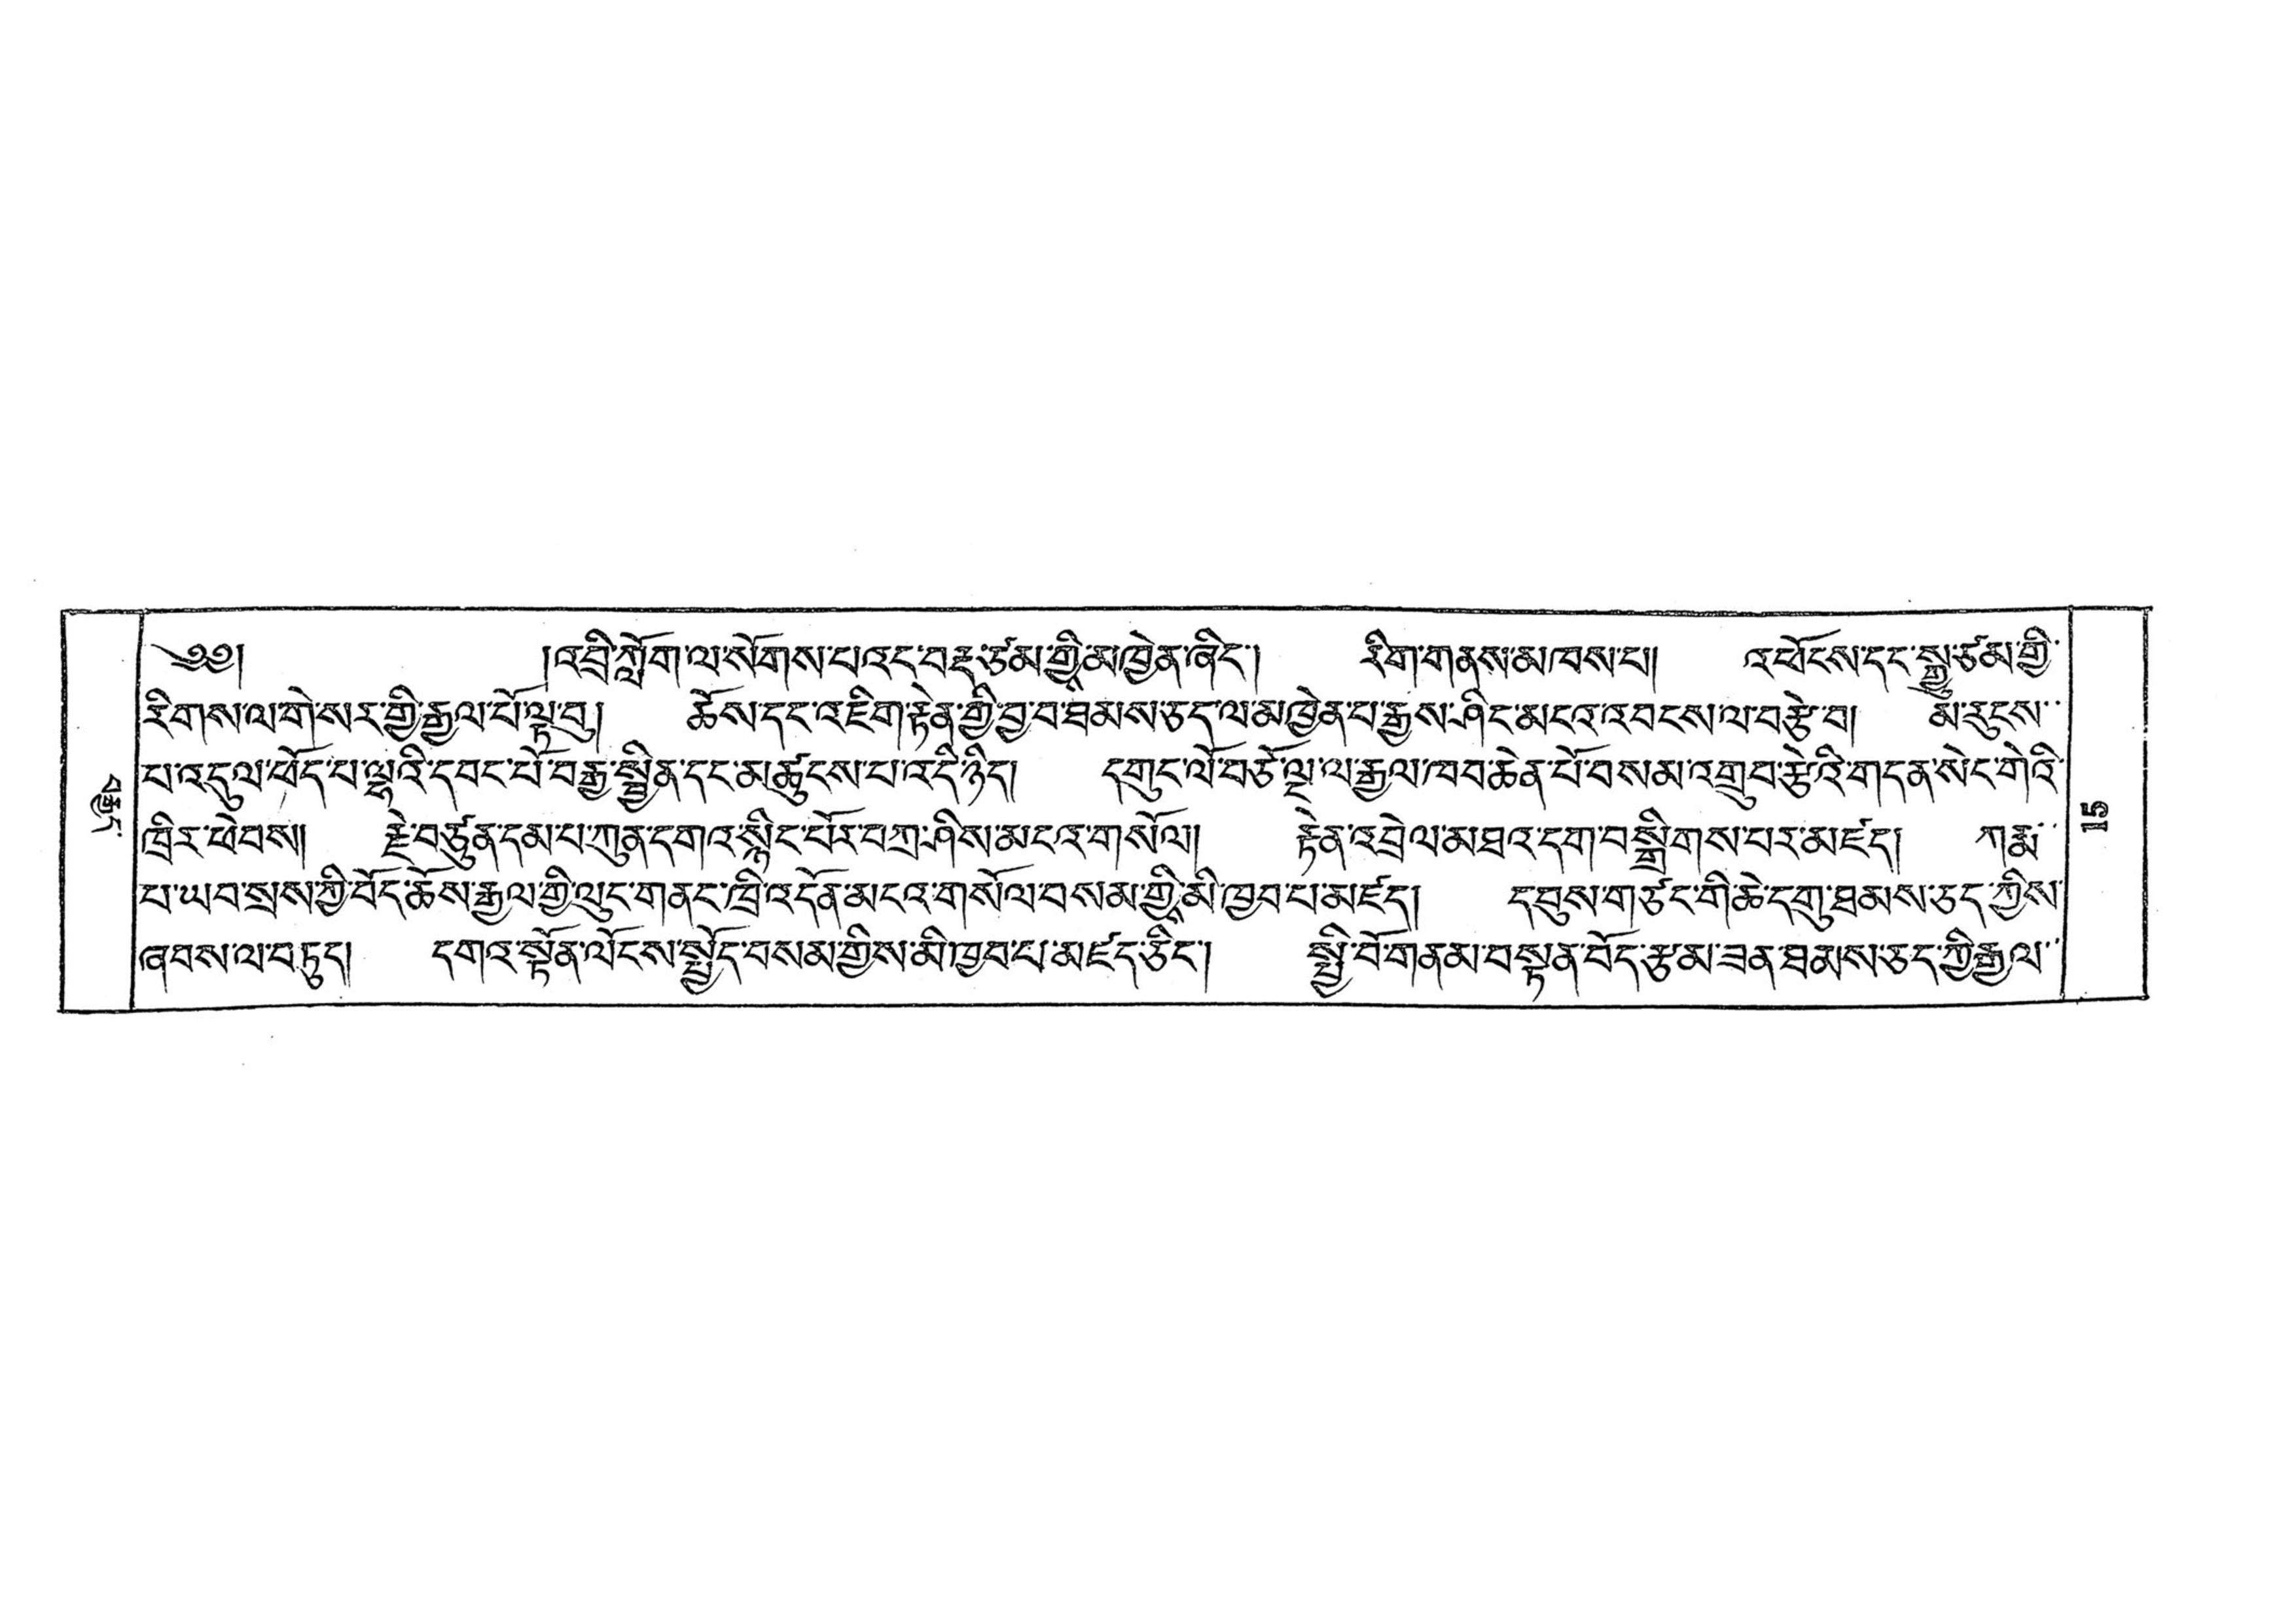བརྒྱད་
༄༅།  །འབྲི་ཀློག་ལ་སོགས་པའང་བརྡ་ཙམ་གྱིས་མཁྱེན་ཞིང་། རིག་གནས་མཁས་པ། འཕོངས་དང་སྒྱུ་ཙམ་གྱི་
རིགས་ལ་གེ་སར་གྱི་རྒྱལ་པོ་ལྟ་བུ། ཆོས་དང་འཇིག་རྟེན་གྱི་བྱ་བ་ཐམས་ཅད་ལ་མཁྱེན་པ་རྒྱས་ཤིང་མངའ་འབངས་ལ་བརྩེ་བ། མ་རུངས་་
པ་འདུལ་ཕོད་པ་ལྷའི་དབང་པོ་བརྒྱ་སྦྱིན་དང་མཚུངས་པ་འདི་ཉིད། དགུང་ལོ་བཅོ་ལྔ་ལ་རྒྱལ་ཁབ་ཆེན་པོ་བསམ་འགྲུབ་རྩེའི་གདན་སེང་གེའི་
ཁྲིར་ཕེབས། རྗེ་བཙུན་དམ་པ་ཀུན་དགའ་སྙིང་པོར་པཀྲ་ཤིས་མངའ་གསོལ། རྟེན་འབྲེལ་མཐའ་དག་བསྒྲིགས་པར་མཛད། ཀརྨ་་
པ་ཡབ་སྲས་ཀྱི་བོད་ཆོས་རྒྱལ་གྱི་ལུང་གནང་ཁྲི་འདོན་མངའ་གསོལ་བསམ་གྱིས་མི་ཁྱབ་པ་མཛད། དབུས་གཙང་གི་ཆེ་དགུ་ཐམས་ཅད་ཀྱིས་
ཞབས་ལ་བཏུད། དགའ་སྟོན་ལོངས་སྤྱོད་བསམ་གྱིས་མི་ཁྱབ་པ་མཛད་ཅིང་། སྤྱི་བོ་གནམ་བསྟན་བོད་རྩམ་ཟན་ཐམས་ཅད་ཀྱི་རྒྱལ་་
